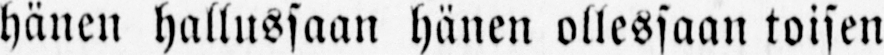hänen hallussaan hänen ollessaan toisen
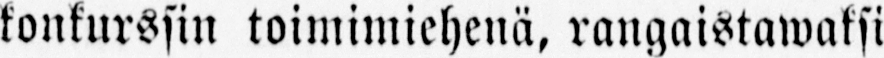konkurssin toimimiehenä, rangaistawaksi
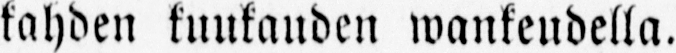kahden kuukauden wankeudella.
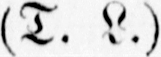(T. L.)
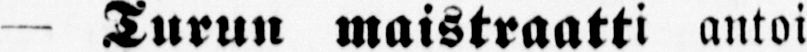— Turun maistraatti antoi
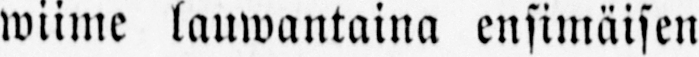wiime lauwantaina ensimäisen suoma-
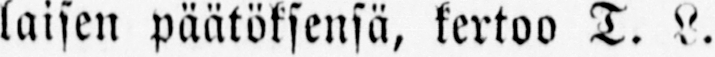laisen päätöksensä, kertoo T. L.
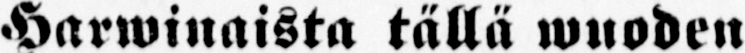— Harwinaista tällä wuoden
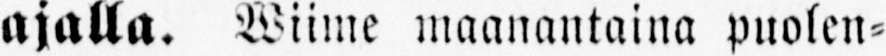ajalla. Wiime maanantaina puolen-
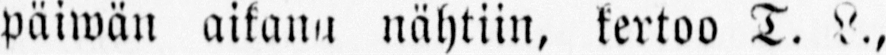päiwän aikana nähtiin, kertoo T. L.,
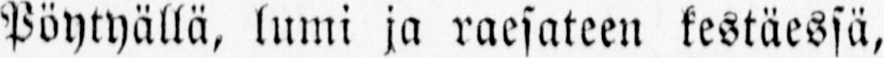Pöytyällä, lumi ja raesateen kestäessä,
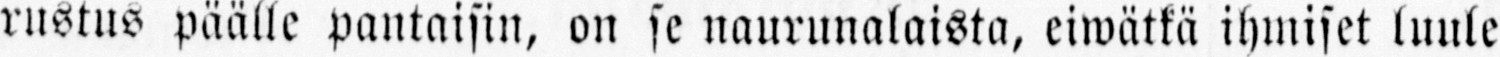rustus päälle pantaisin, on se naurunalaista, eiwätkä ihmiset luule
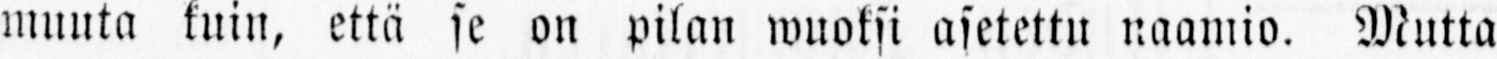muuta kuin, että se on pilan wuoksi asetettu naamio. Mutta
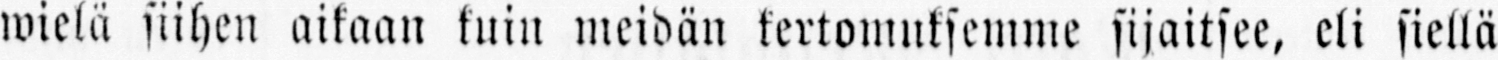wielä siihen aikaan kuin meidän kertomuksemme sijaitsee, eli siellä
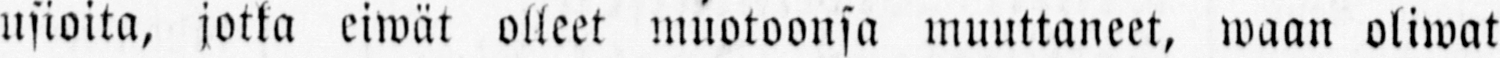asioita, jotka eiwät olleet muotoonsa muuttaneet, waan oliwat
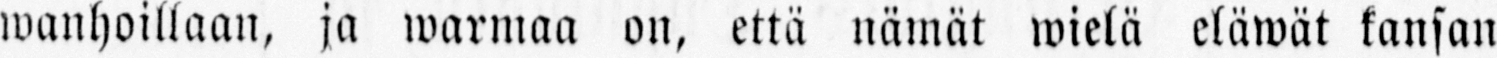wanhoillaan, ja warmaa on, että nämät wielä eläwät kansan
